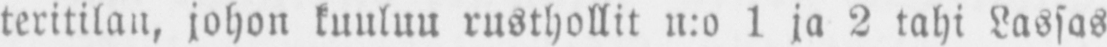teritilan, johon kuuluu rusthollit n:o 1 ja 2 rahi Lassas
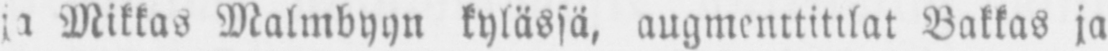ja Mikkas Malmbyyn kylässä, augmenttitilat Bakkas ja
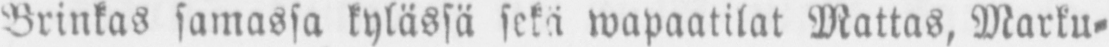Brinkas samassa kylässä sekä wapaatilat Mattas, Marku-
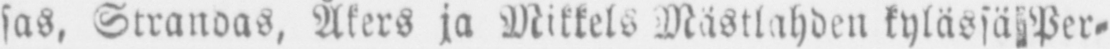sas, Stranoas, Åkers ja Mikkels Mästlahden kylässä Per-
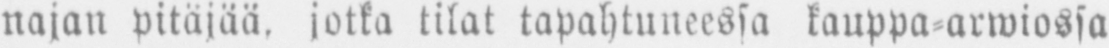najan pitäjää, jotka tilat tapahtuneessa kauppa-arwiossa
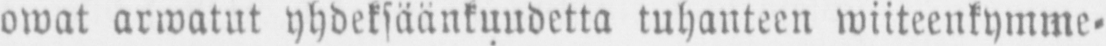owat arwatut yhdeksäänkundetta tuhanteen wiiteenkymme-
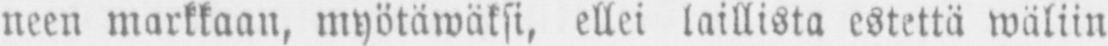neen markkaan, myötäwäksi, ellei laillista estettä wäliin
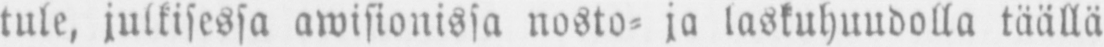tule, julkisessa awisionissa nosto ja laskuhuudolla täällä
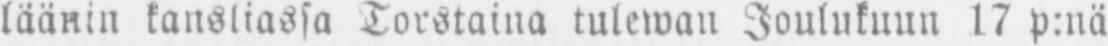läänin kansliassa Torstaina tulewan Joulukuun l7 p:nä
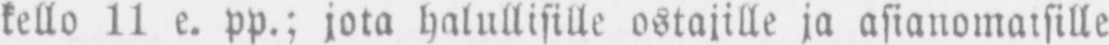kello 11 e. pp.; jota halullisille ostajille ja asianomaisille
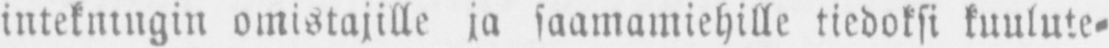intekntngin omistajille ja saamamiehille tiedoksi kuulute-
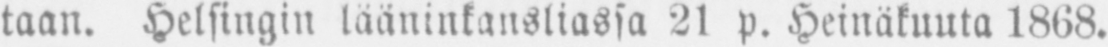taan. Helsingin lääninkansliassa 2l p. Heinäkuuta 1868.
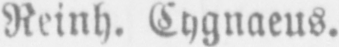Reinh. Cygnaeus.
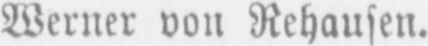Werner von Rehausen.
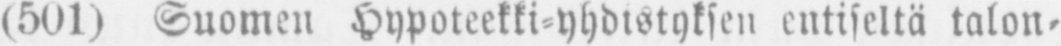(501) Suomen Hypoteekki-yhdistyksen entiseltä talon-
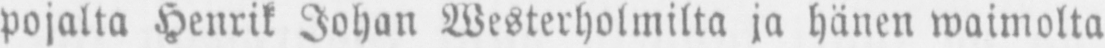pojalta Henrik Johan Westerholmilta ja hänen waimolta
